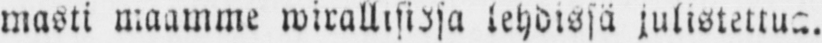masti maamme wirallisissa lehdissä julistettua.
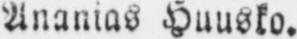Ananias Huusko.
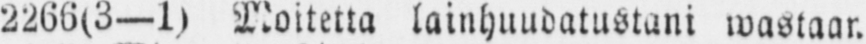2206(3 —1) Moitetta lainhuudatustani wastaan
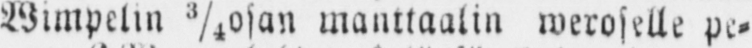23/32osalle Wimpelin ¾ manttaalin weroselle pe-
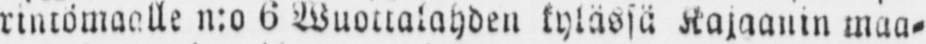rintömaalle n:o 6 Wuottalahden kylässä Kajaanin maa-
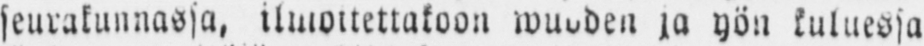seurakunnassa, ilmoitettakoon wuoden ja yön kuluessa
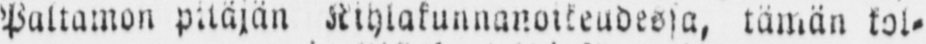Paltamon pitäjän Kihlakunnanoikeudessa, tämän kol-
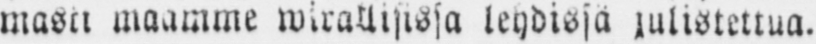masti maamme wirallisissa lehdissä julistettua.
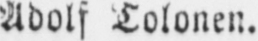Adolf Tolonen.
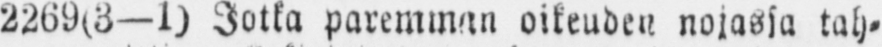2269(3—1) Jotka paremman oikeuden nojassa tah-
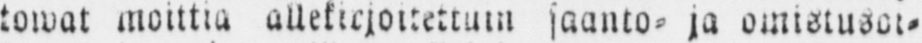towat moittia allekirjoitettuin saanto- ja omistusoi-
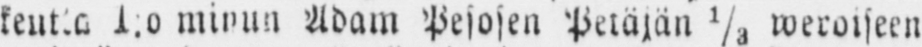keutta 1.o minun Adam Pesosen Petäjän 1/3 weroiseen
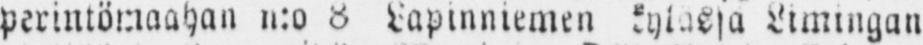perintömaahan n:o 8 Lapinniemen kylässä Limingan
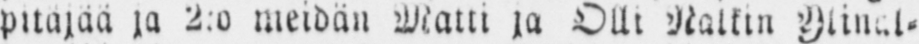pitäjää ja 2:o meidän Matti ja Olli Nalkin Ylinal-
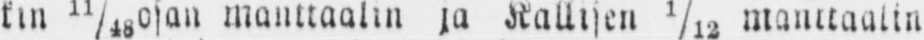kin 11/48 manttaalin ja Kallisen 1/12 manttaalin
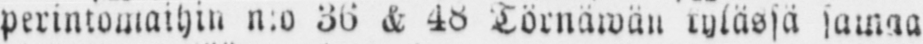perintomaihin n:o 36 & 48 Törnäwän kylässä samaa
